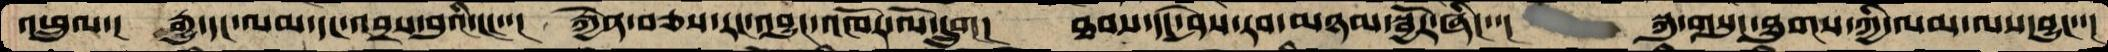འཕྲུལ་།  རྒྱུ་དང་ལམ་དང་འབྲས་བུའི་ངང་་།  རྐྱེན་བཅས་རང་འབྱུང་འཁོར་ལོ་དྲུག།  ཐབས་དང་ཤེས་རབ་མཉམ་སྦྱོར་ཞིང་་།  སྐུ་གསུང་ཐུགས་ཀྱི་ལམ་ལས་བྱུང་་།
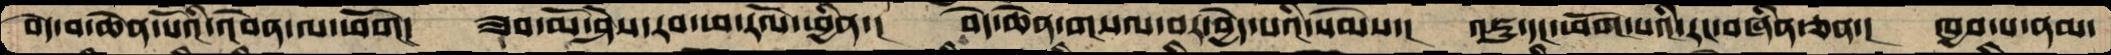བདེ་བ་ཆེན་པོའི་འབེན་ལ་ཕོག།  ཟབ་མོ་ཤེས་རབ་ཕ་རོལ་ཕྱིན་།  བདེ་ཆེན་གསལ་བར་བྱེད་པའི་སེམས་།  འཇུ་དང་ཕོག་པའི་རང་བཞིན་ཅན་།  ཁྱབ་པ་ནམ་
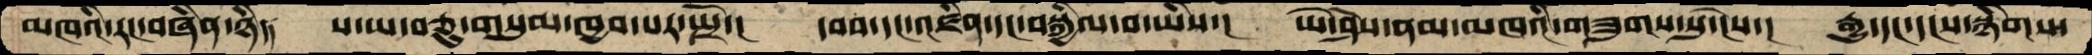མཁའི་རང་བཞིན་ཉིད་།  ས་ཡ་བཅུ་གསུམ་ཁྱབ་པར་སྤྲོ་།  དབབ་དང་འཛིན་དང་བསྐྱིལ་བ་ཡིས་།  ཡེ་ཤེས་ནམ་མཁའི་གཟུགས་སུ་ངེས་།  རྒྱུ་དང་དངས་སྙིགས་
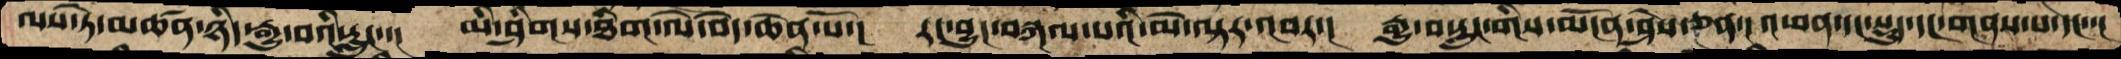ལས་ཏེ་མཚན་ཉིད་རྒྱུ་བའི་རླུང་་།  མི་ཤིགས་ཐིག་ལེ་བདེ་ཆེན་པོ་།  རང་བྱུང་བསྐལ་པའི་མེ་ལྟར་འབར་།  རྒྱུ་བ་རླུང་གིས་མངོན་ཤེས་ཅན་། འཕན་དང་སྡུད་དང་གནས་པ་དང་་།
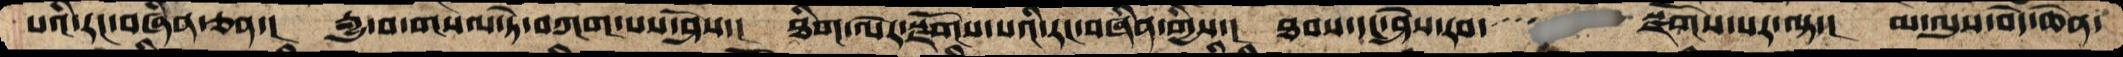པའི་རང་བཞིན་ཅན་།  རྒྱུ་བ་གསལ་ཏེ་བཀག་པས་ཤེས་།  ཐིག་ལེར་སྫོགས་པའི་རང་བཞིན་གྱིས་།   ཐབས་དང་ཤེས་རབ་་་་   ་སྫོགས་པར་ལྟ་།  མ་ལུས་བདེ་ཆེན་
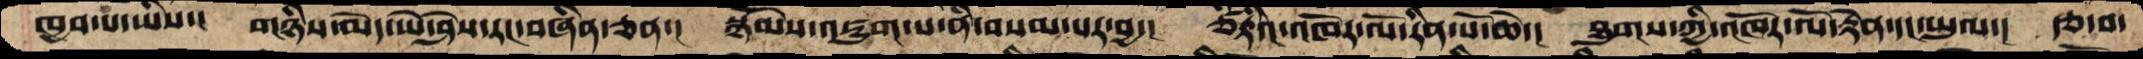ཁྱབ་པ་ཡིས་།  གཉིད་མེད་ཡེ་ཤེས་རང་བཞིན་ཅན་།  སྙོམས་འཇུག་པ་ནི་བསམ་པར་བྱ་།  ཙིཏྟའི་འཁོར་ལོ་རིན་པོ་ཆེ་།  ཐུགས་ཀྱི་འཁོར་ལོ་རྟེན་དང་ཡུལ་།  རྩ་བ་
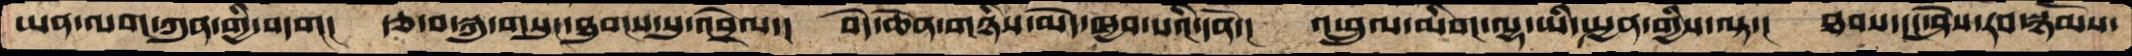ཡན་ལག་ཀུན་གྱི་བདག།  རྩ་བ་སྐུ་གསུང་ཐུགས་སུ་འབྲེལ་།  བདེ་ཆེན་གཉིས་མེད་ཁྱབ་པའི་དོན་།  འཕྲུལ་མིག་ལྷ་ཡི་སྤྱན་གྱིས་ལྟ་།  ཐབས་དང་ཤེས་རབ་སྙོམས་
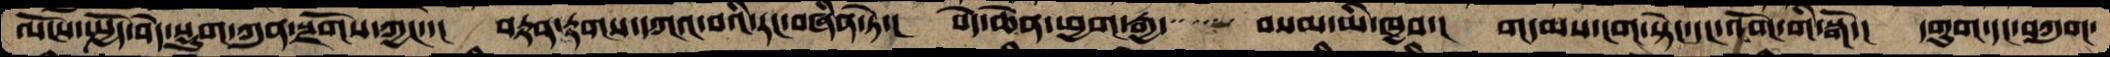ལོངས་སྤྱོད་བདེ་སྡུག་ཀུན་སྫོགས་ཀྱང་་།  བརྟན་རྟགས་དཀའ་བའི་རང་བཞིན་ཏེ་།  བདེ་ཆེན་ཕྱག་རྒྱ་་་་་  བསམ་མི་ཁྱབ་།  གདམས་ངག་སྟེང་དང་འོག་གི་སྒོ་།  དགུག་དང་བཀུག་
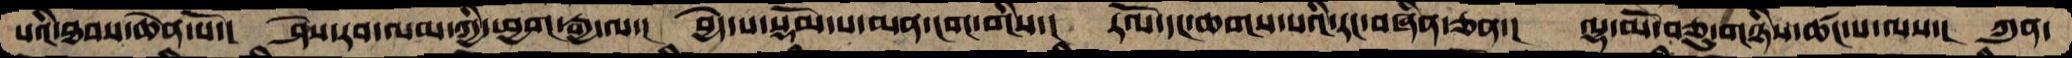པའི་ཐབས་ཆེན་པོ་།  ཤེས་རབ་ལམ་ཀྱི་ཕྱག་རྒྱ་ལ་།  བྱེད་པ་སྡོམ་པ་མན་ངག་གིས་།  རོལ་དང་ཆགས་པའི་རང་བཞིན་ཅན་།  ལྷ་མོ་བཅུ་གཉིས་ཚང་པ་ལས་།  ཀུན་
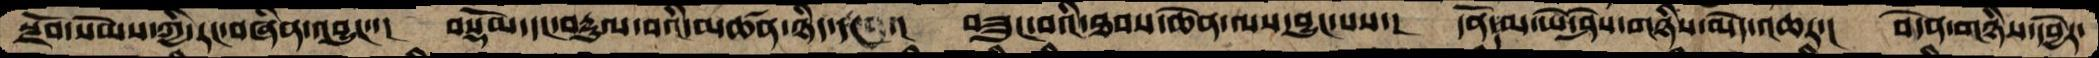སྫོབ་སེམས་ཀྱི་རང་བཞིན་འབྱུང་་། བསྡོམ་དང་བརྡུལ་བའི་མཚན་ཉིད་དང་་། བཟུང་བའི་ཐབས་ཆེན་ལས་བྱུང་པས་། དོན་དམ་ཡེ་ཤེས་གཉིས་མེད་འཆར་། བདེན་གཉིས་དབྱེར་
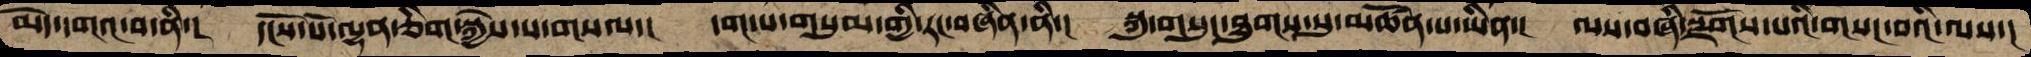མེད་དགའ་བ་ནི་།  དངོས་པོ་ལྷན་ཅིག་སྐྱེས་པ་གསལ་།   དག་པ་གསུམ་གྱི་རང་བཞིནནི་།  སྐུ་གསུང་ཐུགས་སུ་མཚོན་པ་ཡིན་།  ལས་བཞི་སྫོགས་པའི་གསང་བའི་ལས་།
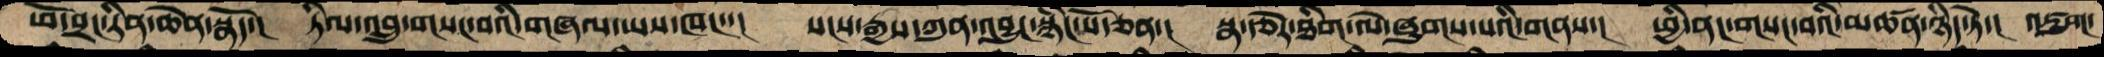ཕོ་བྲང་རིན་ཆེན་སྣོད་།  ཏིལ་འབྲུ་གསང་བའི་གཞལ་ཡས་ཁང་་།  སངས་རྒྱས་ཀུན་འབྱུང་སྙིང་པོ་ཅན་།  སྣ་རྩེར་ཐིག་ལེ་ཞུགས་པའི་གནས་།  ཕྱི་ནང་གསང་བའི་མཚན་ཉིད་སྟེ་།  འཇུག་
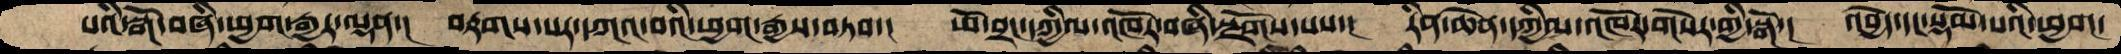པའི་སྒོ་བཞི་ཕྱག་རྒྱར་ལྡན་།  བརྟགས་པར་དཀའ་བའི་ཕྱག་རྒྱས་བཏབ་།  ཕོ་བྲང་དཀྱིལ་འཁོར་བཞི་སྫོགས་པས་།  རིན་ཆེན་དཀྱིལ་འཁོར་གསེར་གྱི་སྒོ་།  འབྱེད་དང་སྡོམ་པའི་ཕྱག་
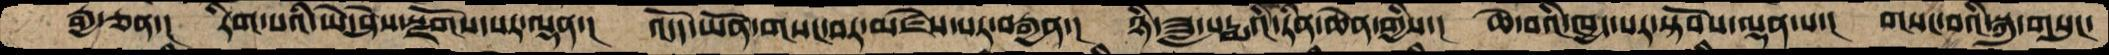རྒྱ་ཅན་།  རིག་པའི་ཡེ་ཤེས་སྫོགས་པར་ལྡན་།  འདོད་ཡོན་གསང་བར་མཛེས་པར་བརྒྱན་།  ཉི་ཟླ་པདྨའི་རིན་ཆེན་གྱིས་།  ཆེ་བའི་ཁྱད་པར་སྟོབས་ལྡན་པ་།  གསང་བའི་སྐུ་གསུང་
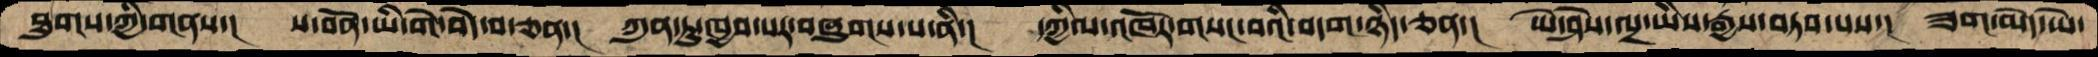ཐུགས་ཀྱི་གནས་།  ས་བོན་ཡི་གེ་བདེ་བ་ཅན་།  ཀུན་ཏུ་ཁྱབ་པར་བཞུགས་པ་ནི་།  དཀྱིལ་འཁོར་གསང་བའི་བདག་ཉིད་ཅན་།  ཡེ་ཤེས་ལྔ་ཡིས་རྒྱས་བཏབ་པས་།  ཟག་མེད་ཡེ་
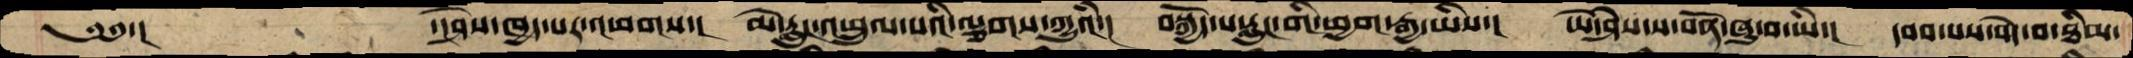༄༅་།   ་།ཤེས་ཁྱད་པར་འཕགས་།  མེ་རླུང་འཕྲུལ་པའི་ལྕགས་ཀྱུའཾ་།  བསྐྱོད་པ་རླུང་གི་ཕྱག་རྒྱ་ཡིས་།  ཡེ་ཤེས་ས་བོན་ཞུ་བ་ཡི་།  དབབ་པས་བདེ་བ་ཐིམ་
